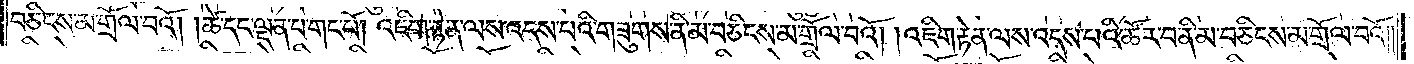བཅིངས་མ་གྲོལ་བའོ། །ཚེ་དང་ལྡན་པ་གང་པོ། འཇིག་རྟེན་ལས་འདས་པའི་གཟུགས་ནི་མ་བཅིངས་མ་གྲོལ་བའོ། །འཇིག་རྟེན་ལས་འདས་པའི་ཚོར་བ་ནི་མ་བཅིངས་མ་གྲོལ་བའོ། །
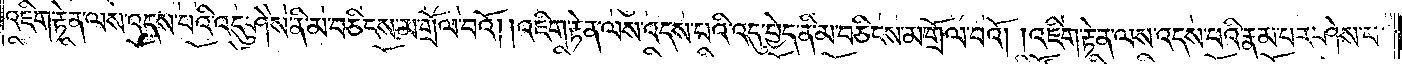འཇིག་རྟེན་ལས་འདས་པའི་འདུ་ཤེས་ནི་མ་བཅིངས་མ་གྲོལ་བའོ། །འཇིག་རྟེན་ལས་འདས་པའི་འདུ་བྱེད་ནི་མ་བཅིངས་མ་གྲོལ་བའོ། །འཇིག་རྟེན་ལས་འདས་པའི་རྣམ་པར་ཤེས་པ་
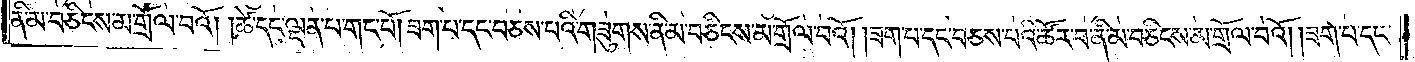ནི་མ་བཅིངས་མ་གྲོལ་བའོ། །ཚེ་དང་ལྡན་པ་གང་པོ། ཟག་པ་དང་བཅས་པའི་གཟུགས་ནི་མ་བཅིངས་མ་གྲོལ་བའོ། །ཟག་པ་དང་བཅས་པའི་ཚོར་བ་ནི་མ་བཅིངས་མ་གྲོལ་བའོ། །ཟག་པ་དང་
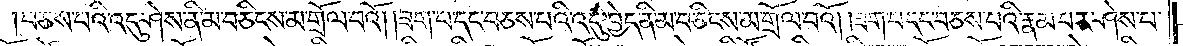བཅས་པའི་འདུ་ཤེས་ནི་མ་བཅིངས་མ་གྲོལ་བའོ། །ཟག་པ་དང་བཅས་པའི་འདུ་བྱེད་ནི་མ་བཅིངས་མ་གྲོལ་བའོ། །ཟག་པ་དང་བཅས་པའི་རྣམ་པར་ཤེས་པ་
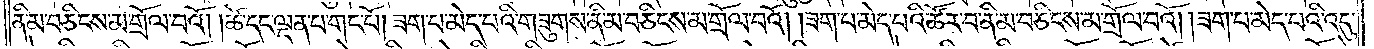ནི་མ་བཅིངས་མ་གྲོལ་བའོ། །ཚེ་དང་ལྡན་པ་གང་པོ། ཟག་པ་མེད་པའི་གཟུགས་ནི་མ་བཅིངས་མ་གྲོལ་བའོ། །ཟག་པ་མེད་པའི་ཚོར་བ་ནི་མ་བཅིངས་མ་གྲོལ་བའོ། །ཟག་པ་མེད་པའི་འདུ་
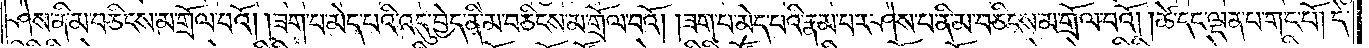ཤེས་ནི་མ་བཅིངས་མ་གྲོལ་བའོ། །ཟག་པ་མེད་པའི་འདུ་བྱེད་ནི་མ་བཅིངས་མ་གྲོལ་བའོ། །ཟག་པ་མེད་པའི་རྣམ་པར་ཤེས་པ་ནི་མ་བཅིངས་མ་གྲོལ་བའོ། །ཚེ་དང་ལྡན་པ་གང་པོ། དེ་
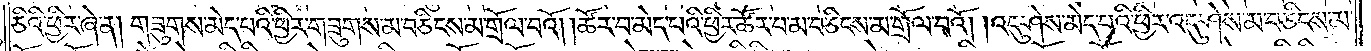ཅིའི་ཕྱིར་ཞེ་ན། གཟུགས་མེད་པའི་ཕྱིར་གཟུགས་མ་བཅིངས་མ་གྲོལ་བའོ། །ཚོར་བ་མེད་པའི་ཕྱིར་ཚོར་བ་མ་བཅིངས་མ་གྲོལ་བའོ། །འདུ་ཤེས་མེད་པའི་ཕྱིར་འདུ་ཤེས་མ་བཅིངས་མ་
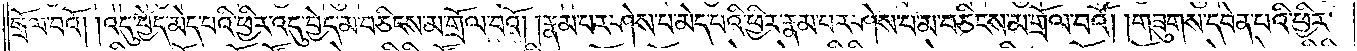གྲོལ་བའོ། །འདུ་བྱེད་མེད་པའི་ཕྱིར་འདུ་བྱེད་མ་བཅིངས་མ་གྲོལ་བའོ། །རྣམ་པར་ཤེས་པ་མེད་པའི་ཕྱིར་རྣམ་པར་ཤེས་པ་མ་བཅིངས་མ་གྲོལ་བའོ། །གཟུགས་དབེན་པའི་ཕྱིར་
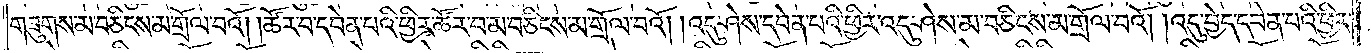གཟུགས་མ་བཅིངས་མ་གྲོལ་བའོ། །ཚོར་བ་དབེན་པའི་ཕྱིར་ཚོར་བ་མ་བཅིངས་མ་གྲོལ་བའོ། །འདུ་ཤེས་དབེན་པའི་ཕྱིར་འདུ་ཤེས་མ་བཅིངས་མ་གྲོལ་བའོ། །འདུ་བྱེད་དབེན་པའི་ཕྱིར་
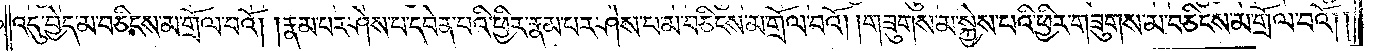འདུ་བྱེད་མ་བཅིངས་མ་གྲོལ་བའོ། །རྣམ་པར་ཤེས་པ་དབེན་པའི་ཕྱིར་རྣམ་པར་ཤེས་པ་མ་བཅིངས་མ་གྲོལ་བའོ། །གཟུགས་མ་སྐྱེས་པའི་ཕྱིར་གཟུགས་མ་བཅིངས་མ་གྲོལ་བའོ། །
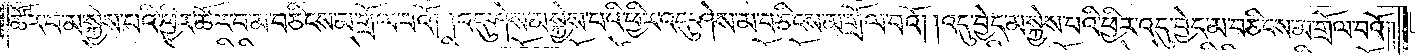ཚོར་བ་མ་སྐྱེས་པའི་ཕྱིར་ཚོར་བ་མ་བཅིངས་མ་གྲོལ་བའོ། །འདུ་ཤེས་མ་སྐྱེས་པའི་ཕྱིར་འདུ་ཤེས་མ་བཅིངས་མ་གྲོལ་བའོ། །འདུ་བྱེད་མ་སྐྱེས་པའི་ཕྱིར་འདུ་བྱེད་མ་བཅིངས་མ་གྲོལ་བའོ། །
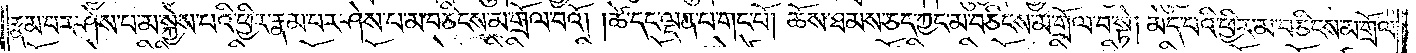རྣམ་པར་ཤེས་པ་མ་སྐྱེས་པའི་ཕྱིར་རྣམ་པར་ཤེས་པ་མ་བཅིངས་མ་གྲོལ་བའོ། །ཚེ་དང་ལྡན་པ་གང་པོ། ཆོས་ཐམས་ཅད་ཀྱང་མ་བཅིངས་མ་གྲོལ་བ་སྟེ། །མེད་པའི་ཕྱིར་མ་བཅིངས་མ་གྲོལ་
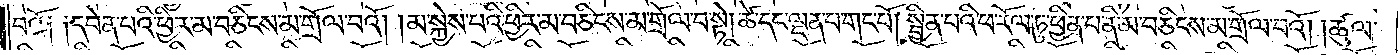བའོ། །དབེན་པའི་ཕྱིར་མ་བཅིངས་མ་གྲོལ་བའོ། །མ་སྐྱེས་པའི་ཕྱིར་མ་བཅིངས་མ་གྲོལ་བ་སྟེ། ཚེ་དང་ལྡན་པ་གང་པོ། སྦྱིན་པའི་ཕ་རོལ་ཏུ་ཕྱིན་པ་ནི་མ་བཅིངས་མ་གྲོལ་བའོ། །ཚུལ་
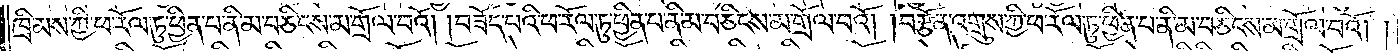ཁྲིམས་ཀྱི་ཕ་རོལ་ཏུ་ཕྱིན་པ་ནི་མ་བཅིངས་མ་གྲོལ་བའོ། །བཟོད་པའི་ཕ་རོལ་ཏུ་ཕྱིན་པ་ནི་མ་བཅིངས་མ་གྲོལ་བའོ། །བརྩོན་འགྲུས་ཀྱི་ཕ་རོལ་ཏུ་ཕྱིན་པ་ནི་མ་བཅིངས་མ་གྲོལ་བའོ། །
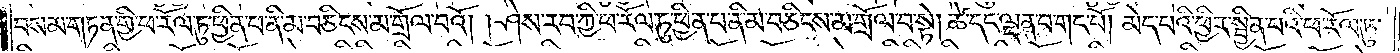བསམ་གཏན་གྱི་ཕ་རོལ་ཏུ་ཕྱིན་པ་ནི་མ་བཅིངས་མ་གྲོལ་བའོ། །ཤེས་རབ་ཀྱི་ཕ་རོལ་ཏུ་ཕྱིན་པ་ནི་མ་བཅིངས་མ་གྲོལ་བ་སྟེ། ཚེ་དང་ལྡན་པ་གང་པོ། མེད་པའི་ཕྱིར་སྦྱིན་པའི་ཕ་རོལ་ཏུ་
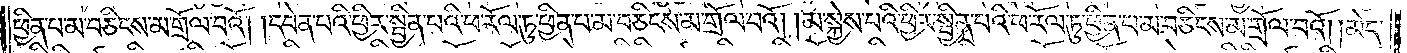ཕྱིན་པ་མ་བཅིངས་མ་གྲོལ་བའོ། །དབེན་པའི་ཕྱིར་སྦྱིན་པའི་ཕ་རོལ་ཏུ་ཕྱིན་པ་མ་བཅིངས་མ་གྲོལ་བའོ། །མ་སྐྱེས་པའི་ཕྱིར་སྦྱིན་པའི་ཕ་རོལ་ཏུ་ཕྱིན་པ་མ་བཅིངས་མ་གྲོལ་བའོ། །མེད་
